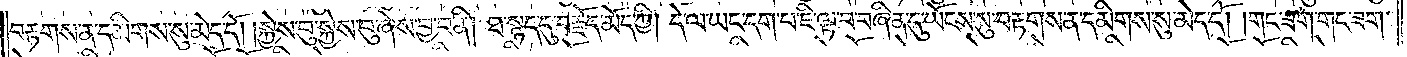བརྟགས་ན་དམིགས་སུ་མེད་དོ། །སྐྱེས་བུ་སྐྱེས་བུ་ཞེས་བྱ་བ་ནི། ཐ་སྙད་དུ་བརྗོད་མོད་ཀྱི། དེ་ལ་ཡང་དག་པ་ཇི་ལྟ་བ་བཞིན་དུ་ཡོངས་སུ་བརྟགས་ན་དམིགས་སུ་མེད་དོ། །གང་ཟག་གང་ཟག་
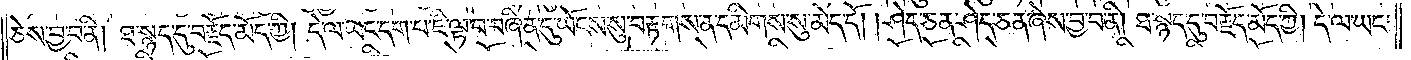ཅེས་བྱ་བ་ནི། ཐ་སྙད་དུ་བརྗོད་མོད་ཀྱི། དེ་ལ་ཡང་དག་པ་ཇི་ལྟ་བ་བཞིན་དུ་ཡོངས་སུ་བརྟགས་ན་དམིགས་སུ་མེད་དོ། །ཤེད་ཅན་ཤེད་ཅན་ཞེས་བྱ་བ་ནི། ཐ་སྙད་དུ་བརྗོད་མོད་ཀྱི། དེ་ལ་ཡང་
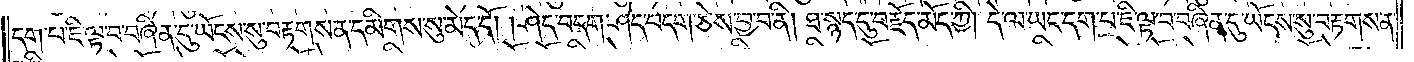དག་པ་ཇི་ལྟ་བ་བཞིན་དུ་ཡོངས་སུ་བརྟགས་ན་དམིགས་སུ་མེད་དོ། །ཤེད་བདག་ཤེད་བདག་ཅེས་བྱ་བ་ནི། ཐ་སྙད་དུ་བརྗོད་མོད་ཀྱི། དེ་ལ་ཡང་དག་པ་ཇི་ལྟ་བ་བཞིན་དུ་ཡོངས་སུ་བརྟགས་ན་
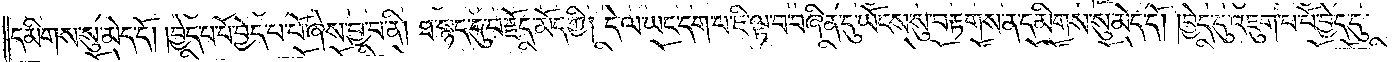དམིགས་སུ་མེད་དོ། །བྱེད་པ་པོ་བྱེད་པ་པོ་ཞེས་བྱ་བ་ནི། ཐ་སྙད་དུ་བརྗོད་མོད་ཀྱི། དེ་ལ་ཡང་དག་པ་ཇི་ལྟ་བ་བཞིན་དུ་ཡོངས་སུ་བརྟགས་ན་དམིགས་སུ་མེད་དོ། །བྱེད་དུ་འཇུག་པ་པོ་བྱེད་དུ་
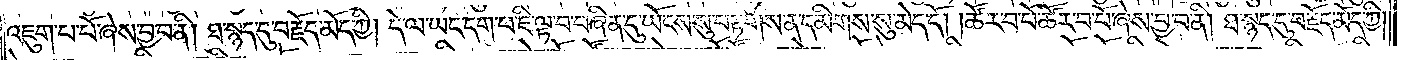འཇུག་པ་པོ་ཞེས་བྱ་བ་ནི། ཐ་སྙད་དུ་བརྗོད་མོད་ཀྱི། དེ་ལ་ཡང་དག་པ་ཇི་ལྟ་བ་བཞིན་དུ་ཡོངས་སུ་བརྟགས་ན་དམིགས་སུ་མེད་དོ། །ཚོར་བ་པོ་ཚོར་བ་པོ་ཞེས་བྱ་བ་ནི། ཐ་སྙད་དུ་བརྗོད་མོད་ཀྱི།
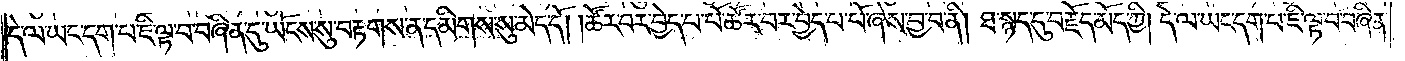དེ་ལ་ཡང་དག་པ་ཇི་ལྟ་བ་བཞིན་དུ་ཡོངས་སུ་བརྟགས་ན་དམིགས་སུ་མེད་དོ། །ཚོར་བར་བྱེད་པ་པོ་ཚོར་བར་བྱེད་པ་པོ་ཞེས་བྱ་བ་ནི། ཐ་སྙད་དུ་བརྗོད་མོད་ཀྱི། དེ་ལ་ཡང་དག་པ་ཇི་ལྟ་བ་བཞིན་
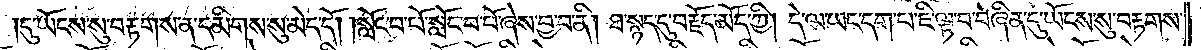དུ་ཡོངས་སུ་བརྟགས་ན་དམིགས་སུ་མེད་དོ། །སློང་བ་པོ་སློང་བ་པོ་ཞེས་བྱ་བ་ནི། ཐ་སྙད་དུ་བརྗོད་མོད་ཀྱི། དེ་ལ་ཡང་དག་པ་ཇི་ལྟ་བ་བཞིན་དུ་ཡོངས་སུ་བརྟགས་
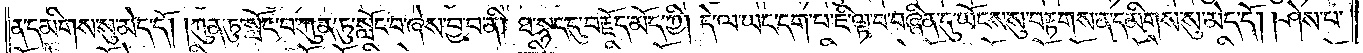ན་དམིགས་སུ་མེད་དོ། །ཀུན་ཏུ་སློང་བ་ཀུན་ཏུ་སློང་བ་ཞེས་བྱ་བ་ནི། ཐ་སྙད་དུ་བརྗོད་མོད་ཀྱི། དེ་ལ་ཡང་དག་པ་ཇི་ལྟ་བ་བཞིན་དུ་ཡོངས་སུ་བརྟགས་ན་དམིགས་སུ་མེད་དོ། །ཤེས་པ་
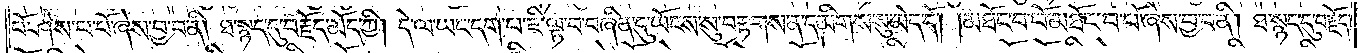པོ་ཤེས་པ་པོ་ཞེས་བྱ་བ་ནི། ཐ་སྙད་དུ་བརྗོད་མོད་ཀྱི། དེ་ལ་ཡང་དག་པ་ཇི་ལྟ་བ་བཞིན་དུ་ཡོངས་སུ་བརྟགས་ན་དམིགས་སུ་མེད་དོ། །མཐོང་བ་པོ་མཐོང་བ་པོ་ཞེས་བྱ་བ་ནི། ཐ་སྙད་དུ་བརྗོད་
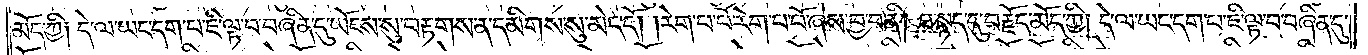མོད་ཀྱི༑ དེ་ལ་ཡང་དག་པ་ཇི་ལྟ་བ་བཞིན་དུ་ཡོངས་སུ་བརྟགས་ན་དམིགས་སུ་མེད་དོ། །རེག་པ་པོ་རེག་པ་པོ་ཞེས་བྱ་བ་ནི། ཐ་སྙད་དུ་བརྗོད་མོད་ཀྱི། དེ་ལ་ཡང་དག་པ་ཇི་ལྟ་བ་བཞིན་དུ་
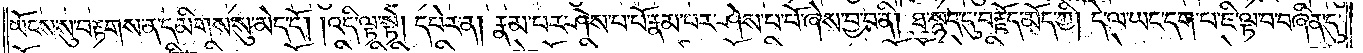ཡོངས་སུ་བརྟགས་ན་དམིགས་སུ་མེད་དོ། །འདི་ལྟ་སྟེ། དཔེར་ན། རྣམ་པར་ཤེས་པ་པོ་རྣམ་པར་ཤེས་པ་པོ་ཞེས་བྱ་བ་ནི། ཐ་སྙད་དུ་བརྗོད་མོད་ཀྱི། དེ་ལ་ཡང་དག་པ་ཇི་ལྟ་བ་བཞིན་དུ་
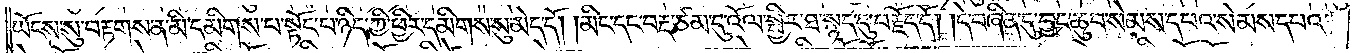ཡོངས་སུ་བརྟགས་ན་མི་དམིགས་པ་སྟོང་པ་ཉིད་ཀྱི་ཕྱིར་དམིགས་སུ་མེད་དོ། །མིང་དང་བརྡ་ཙམ་དུ་འོལ་སྤྱིར་ཐ་སྙད་དུ་བརྗོད་དོ། །དེ་བཞིན་དུ་བྱང་ཆུབ་སེམས་དཔའ་སེམས་དཔའ་
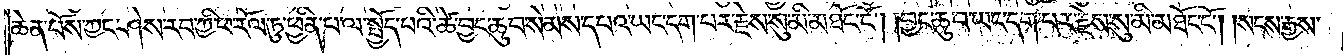ཆེན་པོས་ཀྱང་ཤེས་རབ་ཀྱི་ཕ་རོལ་ཏུ་ཕྱིན་པ་ལ་སྤྱོད་པའི་ཚེ་བྱང་ཆུབ་སེམས་དཔའ་ཡང་དག་པར་རྗེས་སུ་མི་མཐོང་ངོ༌། །བྱང་ཆུབ་ཡང་དག་པར་རྗེས་སུ་མི་མཐོང་ངོ༌། །སངས་རྒྱས་
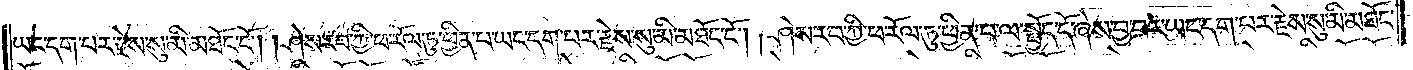ཡང་དག་པར་རྗེས་སུ་མི་མཐོང་ངོ༌། །ཤེས་རབ་ཀྱི་ཕ་རོལ་ཏུ་ཕྱིན་པ་ཡང་དག་པར་རྗེས་སུ་མི་མཐོང་ངོ༌། །ཤེས་རབ་ཀྱི་ཕ་རོལ་ཏུ་ཕྱིན་པ་ལ་སྤྱོད་དོ་ཞེས་བྱ་བར་ཡང་དག་པར་རྗེས་སུ་མི་མཐོང་
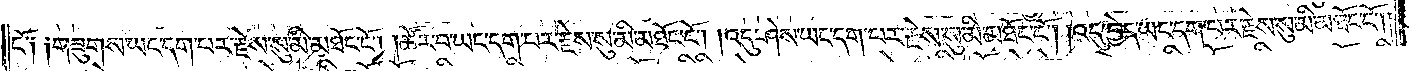ངོ༑ ༑གཟུགས་ཡང་དག་པར་རྗེས་སུ་མི་མཐོང་ངོ༌། །ཚོར་བ་ཡང་དག་པར་རྗེས་སུ་མི་མཐོང་ངོ༌། །འདུ་ཤེས་ཡང་དག་པར་རྗེས་སུ་མི་མཐོང་ངོ༌། །འདུ་བྱེད་ཡང་དག་པར་རྗེས་སུ་མི་མཐོང་ངོ༌༎
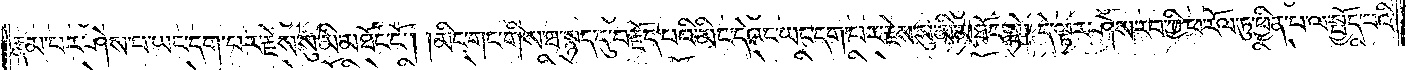རྣམ་པར་ཤེས་པ་ཡང་དག་པར་རྗེས་སུ་མི་མཐོང་ངོ༌། །མིང་གང་གིས་ཐ་སྙད་དུ་བརྗོད་པའི་མིང་དེའང་ཡང་དག་པར་རྗེས་སུ་མི་མཐོང་སྟེ། དེ་ལྟར་ཤེས་རབ་ཀྱི་ཕ་རོལ་ཏུ་ཕྱིན་པ་ལ་སྤྱོད་པའི་
